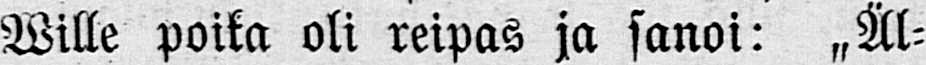Wille poika oli reipas ja sanoi: „Äl-
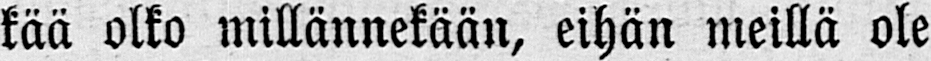kää olko millännekään, eihän meillä ole
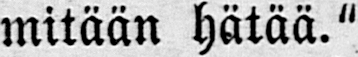mitään hätää."
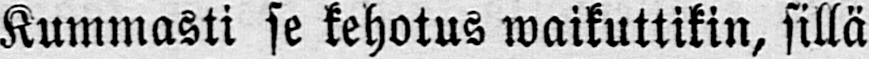Kummasti se kehotus waikuttikin, sillä
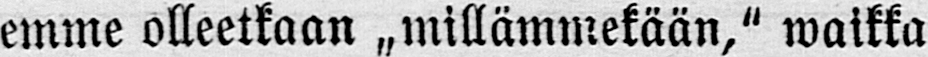emme olleetkaan „millämmekään," waikka
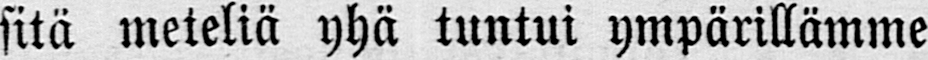sitä meteliä yhä tuntui ympärillämme
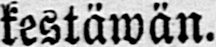kestäwän.
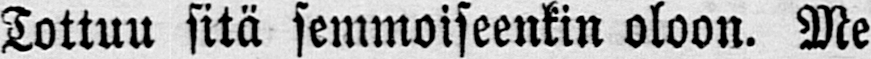Tottuu sitä semmoiseenkin oloon. Me
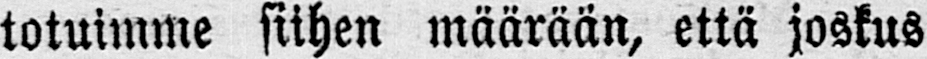totuimme siihen määrään, että joskus
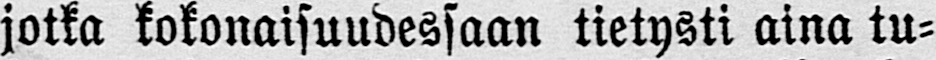jotka kokonaisuudessaan tietysti aina tu-
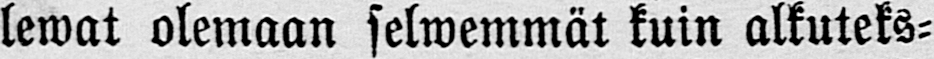lewat olemaan selwemmät kuin alkuteks-
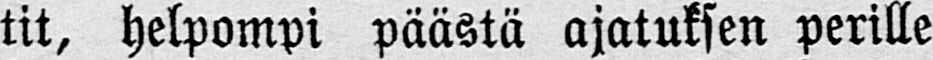tit, helpompi päästä ajatuksen perille
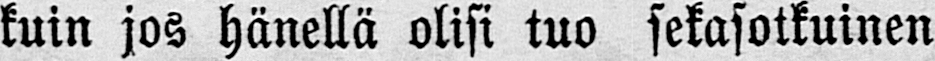kuin jos hänellä olisi tuo sekasotkuinen
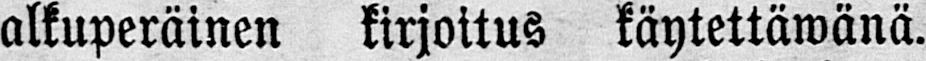alkuperäinen kirjoitus käytettäwänä.
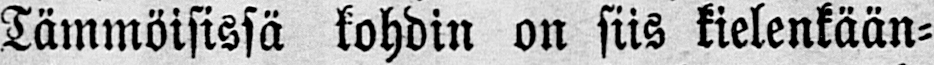Tämmöisissä kohdin on siis kielenkään-
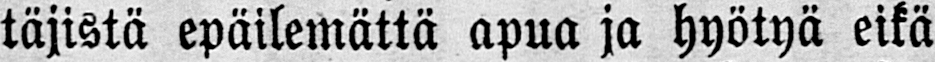täjistä epäilemättä apua ja hyötyä eikä
